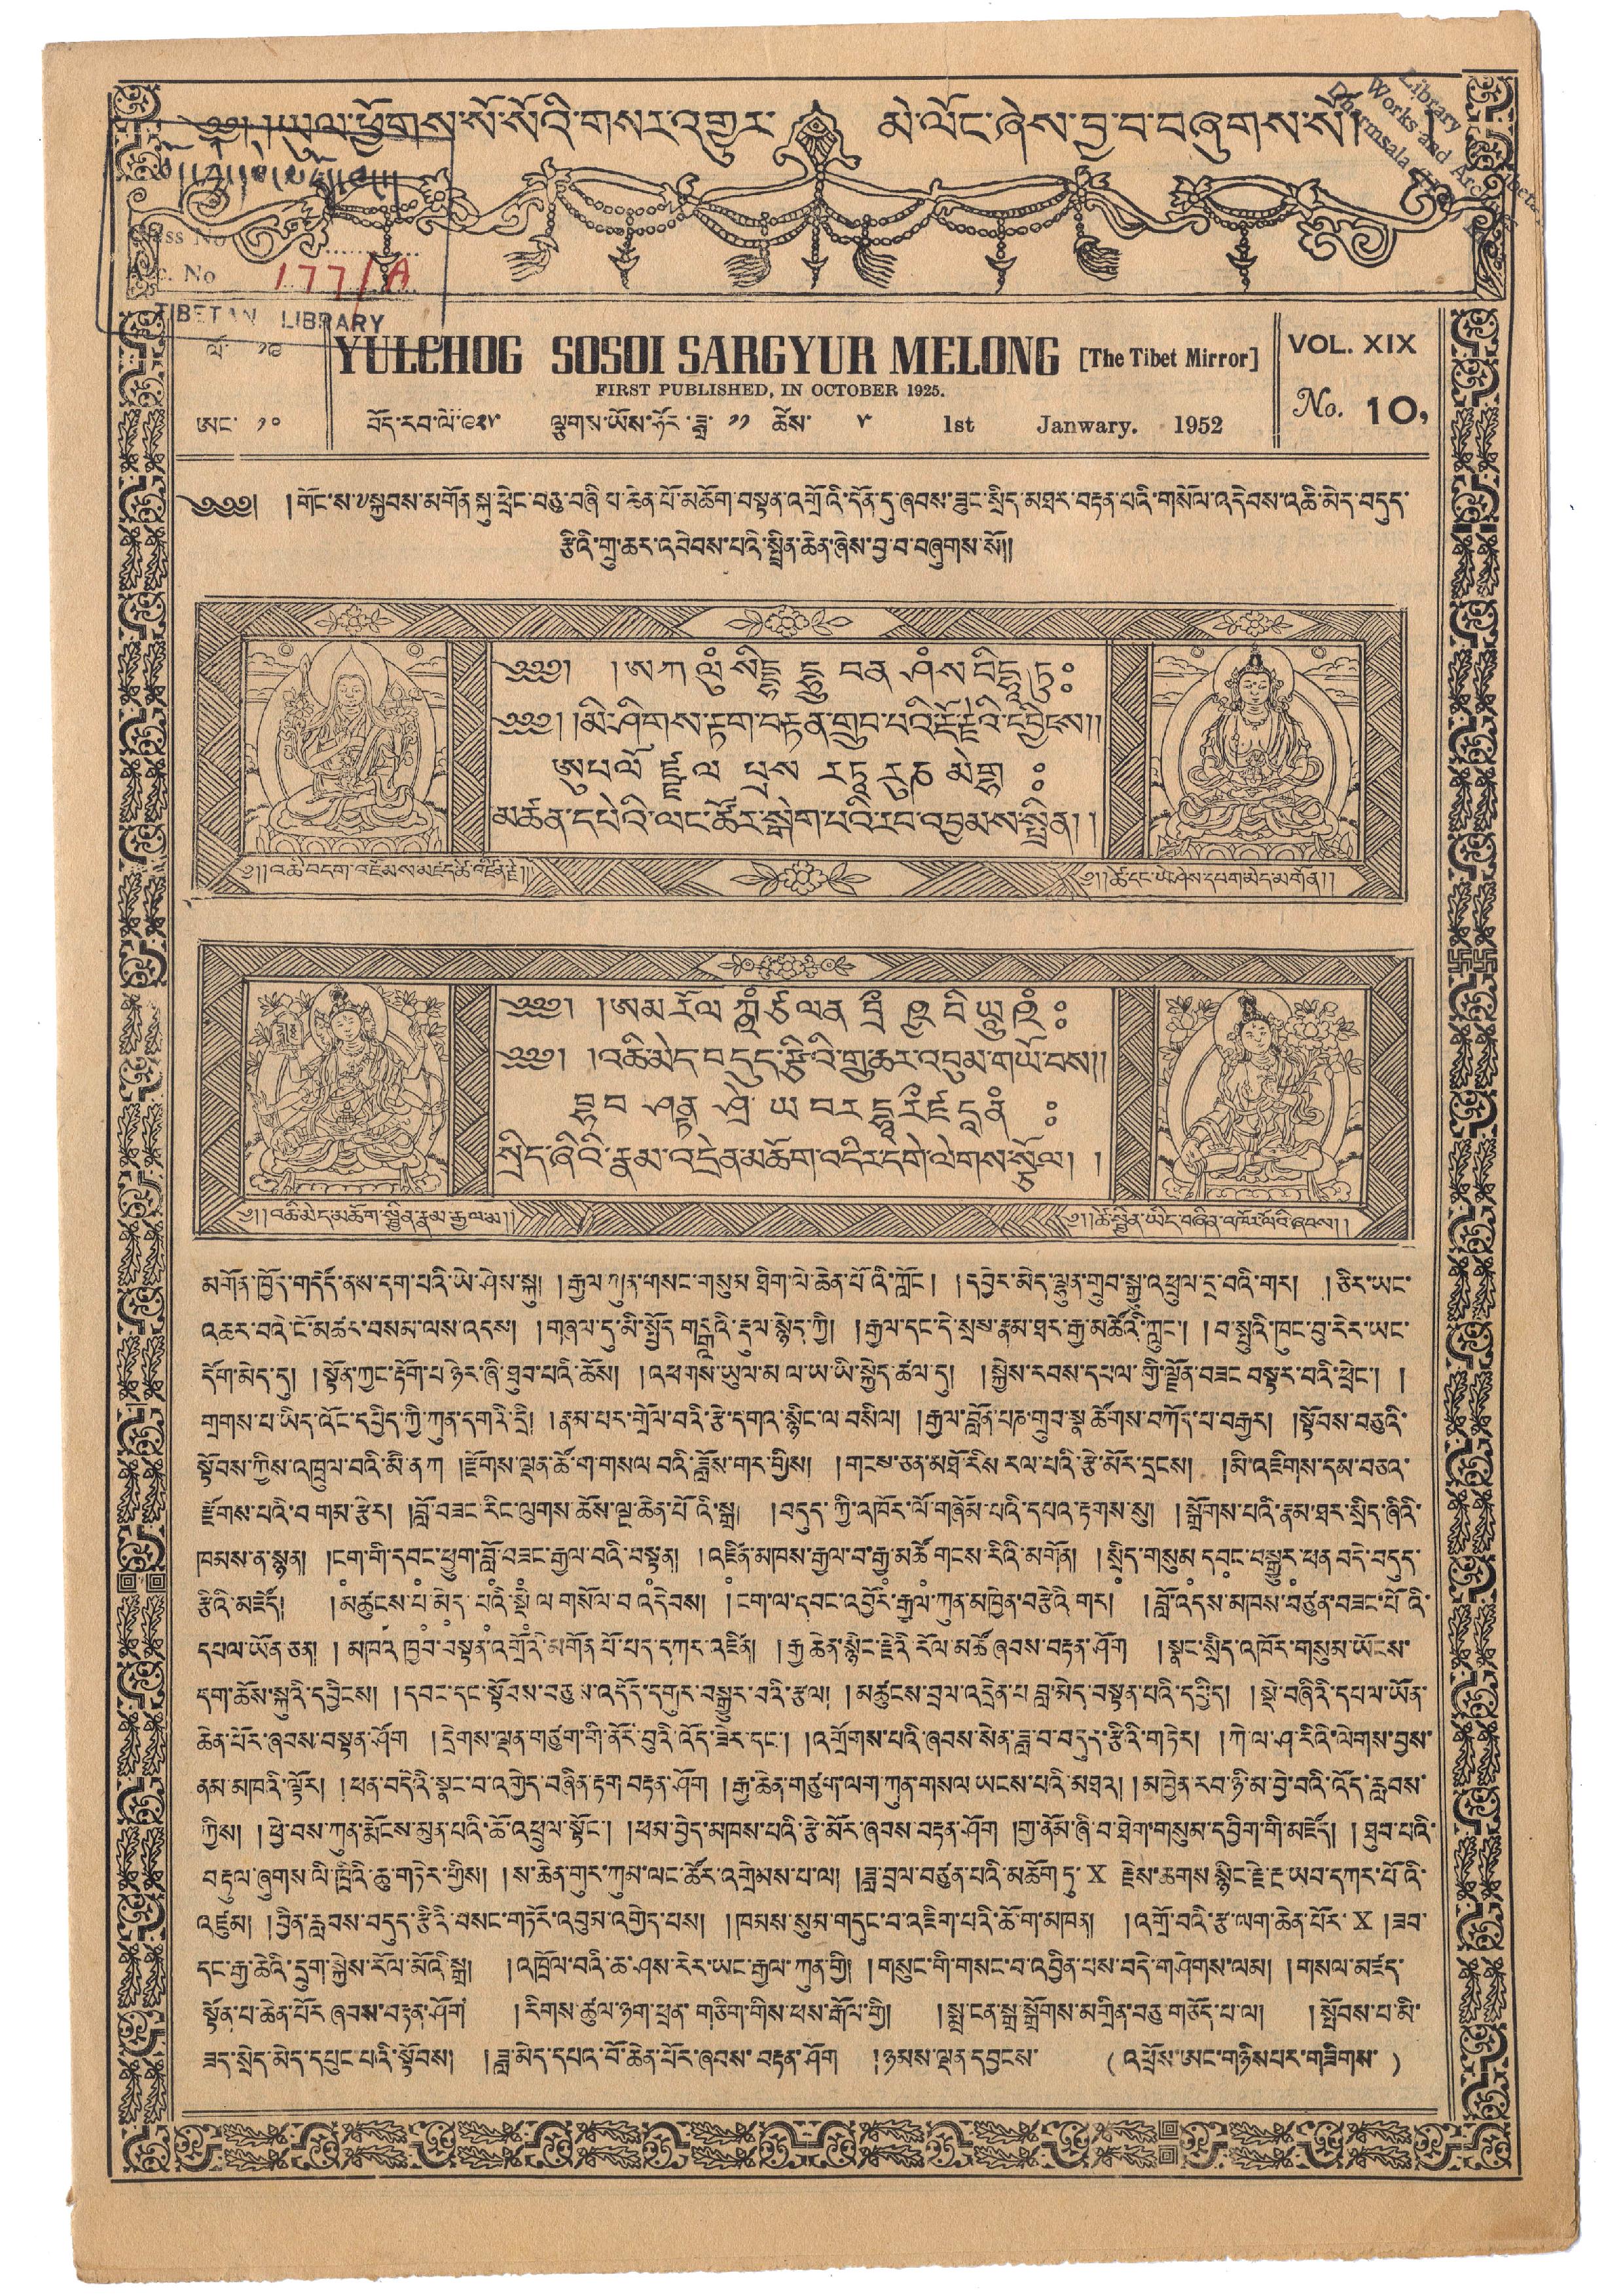༄༅། །ཡུལ་ཕྱོགས་སོ་སོའི་གསར་འགྱུར་ མེ་ལོང་ཞེས་བྱ་བ་གཞུགས་སོ། །
ལོ་ ༡༩
ཨང་ ༡༠
YULCHOG SOSOI SARGYUR MELONG [The Tibet Mirror]
FIRST PUBLISHED, IN OCTOBER 1925.
བོད་རབ་ལོ་༩༢༥ ལྕགས་ཡོས་ཧོར་ཟླ་ ༡༡ ཚེས་ ༥ 1st Janwary. 1952
VOL. XIX
No. 10,
༄༅༅། །གོང་ས་༸སྐྱབས་མགོན་སྐུ་ཕྲེང་བཅུ་བཞི་པ་ཆེན་པོ་མཆོག་བསྟན་འགྲོའི་དོན་དུ་ཞབས་ཟུང་སྲིད་མཐར་བརྟན་པའི་གསོལ་འདེབས་འཆི་མེད་བདུད་
རྩིའི་གྲུ་ཆར་འབེབས་པའི་སྤྲིན་ཆེན་ཞེས་བྱ་བ་བཞུགས་སོ།།
༄༅༅། །ཨ ཀ ལུཾ སིདྡྷ དྷྲུ བན ཤཾས བིདྷཱ ཏུཿ
༄༅༅། ། མི་ཤིགས་རྟག་བརྟན་གྲུབ་པའི་རྡོ་རྗེའི་དབྱིངས།།
ཨུཔལོ ཛྫ ལ པྲས རཏཱ རུཎ མེགྷ ཿ
མཚན་དཔེའི་ལང་ཚོར་སྒེག་པའི་རབ་འབྱམས་སྤྲིན། །
༄།།འཆི་བདག་འཛོམས་མཛད་ཚེ་འཛིན་རྗེ།།
༄།།ཚེ་དང་ཡེ་ཤེས་དཔག་མེད་མགོན།།
༄༅༅། །ཨམ རོལ ཀྵཾ ཙ ལན བྲྀ ཥྱ བི ཡཱུ ཥཾ ཿ
༄༅༅། །འཆི་མེད་བདུད་རྩིའི་གྲུ་ཆར་འབུམ་གཡོ་བས།།
བྷབ ཤནྟ ཤྲེ ཡ བར དྷཱ རྀཛ དཱ ནཾ ཿ
སྲིད་ཞིའི་རྣམ་འདྲེན་མཆོག་འདིར་དགེ་ལེགས་སྩོལ། །
༄།།འཆི་མེད་མཆོག་སྦྱིན་རྣམ་རྒྱལ་མ།།
༄།།ཚེ་སྦྱིན་ཡིད་བཞིན་འཁོར་ལོའི་ཞབས།།
མགོན་ཁྱོད་གདོད་ནས་དག་པའི་ཡེ་ཤེས་སྐུ། །རྒྱལ་ཀུན་གསང་གསུམ ཐིག་ལེ་ཆེན་པོའོ་ཀློང། །དབྱེར་མེད་ལྷུན་གྲུབ་སྒྱུ་འཕྲུལ་དྲ་བའི་གར། །ཅིར་ཡང་
འཆར་བའི་ངོ་མཚར་བསམ་ལས་འདས། །གཞལ་དུ་མི་སྤྱོད་གངྒཱའི་རྡུལ་སྙེད་ཀྱི། །རྒྱལ་དང་དེ་སྲས་རྣམ་ཐར་རྒྱ་མཚོའི་ཀླུང་། །བ་སྤུའི་ཁུང་བུ་རེར་ཡང་
དོག་མེད་དུ། །སྟོན་ཀྱང་རྟོག་པ ཉེར་ཞི་ཐུབ་པའི་ཆོས། །འཕགས་ཡུལ་མ ལ་ཡ་ཡི་སྐྱེད་ཚལ་དུ། །སྐྱེས་རབས་དཔལ་གྱི་ལྗོན་བཟང་བསྟར་བའི་ཕྲེང་། །
གྲགས་པ་ཡིད་འོང་དཔྱིད་ཀྱི་ཀུན་དགའི་དྲི། །རྣམ་པར་གྲོལ་བའི་རྩེ་དགའ་སྙིང་ལ་བསིལ། །རྒྱལ་བློན་པཎ་གྲུབ་སྣ་ཚོགས་བཀོད་པ་བརྒྱར། །སྟོབས་བཅུའི་
སྟོབས་ཀྱིས་འཁྲུལ་བའི་མཻ་ན ཀ །རྫོགས་ལྡན་ཚོ་ག་གསལ་བའི་ཟློས་གར་གྱིས། །གངས་ཅན་མཐོ་རིས རལ་པའི་རྩེ་མོར་དྲངས། །མི་འཇིགས་དམ་བཅའ་
རྫོགས་པའི་བ གམ་རྩེར། །བློ་བཟང་རིང་ལུགས་ཆོས་ལྔ་ཆེན་པོའི་སྐྲ། །བདུད་ཀྱི་འཁོར་ལོ་གཞོམ་པའི་དཔའ་རྟགས་སུ། །སྒྲོགས་པའི་རྣམ་ཐར་སྲིད་ཞིའི་
ཁམས་ན་སྙན། །ང༷ག་གི་དབ༷ང་ཕྱུག་བློ༷་བཟ༷ང་རྒྱལ་བའི་བསྟ༷ན། །འཛི༷ན་མཁས་རྒྱལ་བ་རྒྱ༷་མཚོ༷ གངས་རིའི་མགོན། །སྲི༷ད་གསུམ༷་དབ༷ང་བསྒྱུར༷་ཕན བདེ་བདུད་
རྩིའི་མཛོད། །མཚུང༷ས་པ༷་མེ༷ད་པ༷འི་སྡེ༷ ལ་གསོལ་བ འདེབས། །ངག་ལ་དབང་འབྱོར་རྒྱལ་ཀུན་མཁྱེན་བརྩེའི་གར། །བློ་འདས་མཁས་བཙུན་བཟང་པོའི་
དཔལ་ཡོན་ཅན། །མཁའ་ཁྱབ་བསྟན་འགྲོའི་མགོན་པོ་པད་དཀར་འཛིན། །རྒྱ་ཆེན་སྙིང་རྗེའི་རོལ་མཚོ ཞབས་བརྟན་ཤོག །སྣང་སྲིད་འཁོར་གསུམ་ཡོངས་
དག་ཆོས་སྐུའི་དབྱིངས། །དབང་དང་སྟོབས་བཅུས་འདོད་དགུར་བསྒྱུར་བའི་རྩལ། །མཚུངས་བྲལ་འདྲེན་པ་བླ་མེད་བསྟན་པའི་དཔྱིད། །སྡེ་བཞིའི་དཔལ་ཡོན་
ཆེན་པོར་ཞབས་བསྟན་ཤོག །དྲེགས་ལྡན་གཙུག་གི་ནོར་བུའི་འོད་ཟེར་དང་། །འགྲོགས་པའི་ཞབས་སེར་ཟླ་བ་བདུད་རྩེའི་གཏེར། །ཀེ་ལ་ཤ་རིའི་ལེགས་བྱས་
ནམ་མཁའི་ལྟོར། །ཕན་བདེའི་སྣང་བ་འགྱེད་བཞིན་རྟག་བརྟན་ཤོག །རྒྱ་ཆེན་གཙུག་ལག་ཀུན་གསལ་ཡངས་པའི་མཐའ། །མཁྱེན་རབ་ཉི་མ་བྱེ་བའི་འོད་རླབས་
ཀྱིས། །ཕྱེ་བས་ཀུན་རྨོངས་མུན་པའི་ཆོ་འཕྲུལ་སྟོང་། །ཕམ་བྱེད་མཁས་པའི་རྩེ་མོར་ཞབས་བརྟག་ཤོག །གྱ་ནོམ་ཞི་བ་ཐེག་གསུམ་དབྱིག་གི་མཛོད། །ཐུབ་པའི་
བརྟུལ་ཞུགས་ལི་ཁྲིའི་ཆུ་གཏེར་གྱིས། །ས་ཆེན་གུར་ཀུམ་ལང་ཚོར་འགྲེམས་པ་ལ། །ཟླ་བྲལ་བཙུན་པའི་མཆོག་ཏུ་ X རྗེས་ཆགས་སྙིང་རྗེ་རྔ་ཡབ་དཀར་པོའི་
འཛུམ། །བྱིན་རླབས་བདུད་རྩིའི་བསང་གཏོར་འབུམ་འགྱེད་པས། །ཁམས་སུས་གདུང་བ་འཇིག་པའི་ཆོ་ག་མཁན། །འགྲོ་བའི་རྩ་ལག་ཆེན་པོར་X །ཟབ་
དང་རྒྱ་ཆེའི་དྲུག་སྐྱེས་རོལ་མོའི་སྒྲ། །འཁྲོལ་བའི་ཆ་ཤས་རེར་ཡང་རྒྱལ་ཀུན་གྱི། །གསུང་གི་གསང་བ་འབྱིན་པས་བདེ་གཤེགས་ལས། །གསལ་མཛད་
སྟོན་པ་ཆེན་པོར་ཞབས་བརྟན་ཤོག །རིགས་ཚུལ་ཉག་ཕྲན་གཅིག་གིས་ཕས་རྒོས་གྱི། །སྨྲ་ངན་སྒྲ་སྒྲོགས་མགྲོན་བཅུ་གཅོད་པ་ལ། །སྤོབས་པ་མི་
ཟད་སྲེད་མེད་དཔུང་པའི་སྟོབས། །ཟླ་མེད་དཔའ་བོ་ཆེན་པོར་ཞབས་བརྟན་ཤོག །ཉམས་ལྡན་དབྱངས་
(འཕྲོས་ཨང་གཉིས་པར་གཟིགས་)
